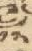༡༢
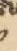༡
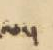ལ་།
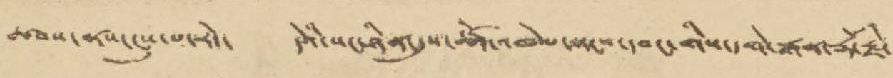ཚབས་ནས་ངུས་པ་རེད་ དེའི་སང་ཉིན་དུས་ཚོད་འཁེལ་སྟངས་དབང་གིས་དགེ་རྒན་རྡོ་རྗེ་
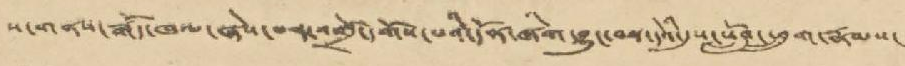ས་གནས་རྒོད་ཁལ་ཞེས་པར་འགྲོ་དགོས་པའི་དོན་ཞིག་བྱུང་བས་དེའི་དུས་སློབ་ཕྲུག་རྣམས་
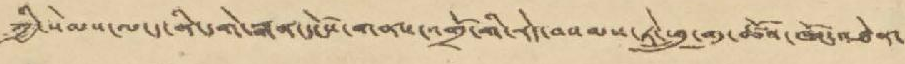ཀྱི་སེམས་ལ་ད་ནི་དགེ་རྒན་དངོས་གནས་འགྲོ་གི་རེད་བསམས་ཏེ་ཕྲུ་གུ་ཚོས་ཁོང་འཐེན་
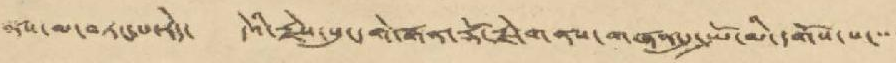ནས་མ་བཏང་པ་རེད་ དེའི་རྗེས་སུ་དགེ་རྒན་རྡོ་རྗེ་གནས་གཞན་དུ་སྤོ་མི་དགོས་པ་་་་
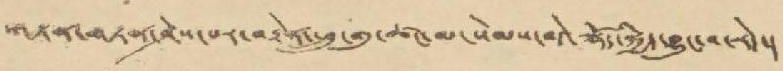གཏན་གཏན་ཤེས་པར་བརྟེན་ཕྲུ་གུ་ཚང་མ་སེམས་བདེ་ལྷོད་སྐྱིད་བྱུང་བ་རེད་།
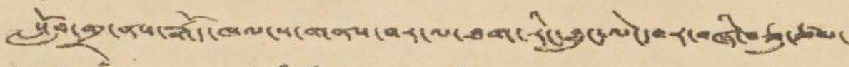སློབ་གྲྭ་ནས་རྒོད་ཁལ་ས་གནས་བར་ལ་ཐག་རིང་ཐུང་ལེ་དབར་བཞི་བཅུ་ཙམ་
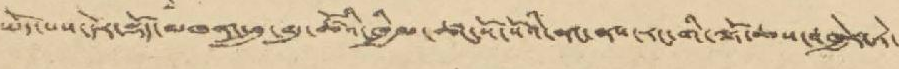ཡོད་པས་དེར་སྡོད་མཁན་ཕྲུ་གུ་ཚོའི་ཁྱིམ་ཚང་སོ་སོའི་ནང་ནས་རང་གི་ལྟོ་ཆས་འཁྱེར་ཏེ་
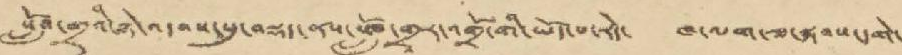སློབ་གྲྭའི་ཉེ་འདབས་ནས་སློབ་གྲྭར་འགྲོ་གི་ཡོད་པ་རེད་ ཁ་ལག་ཟ་སྐབས་དགེ་
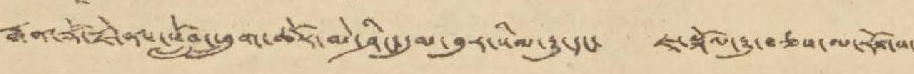རྒན་རྡོ་རྗེ་ནས་སློབ་ཕྲུག་ཚོར་མེ་ཤིང་དུམ་བུར་སིལ་རྒྱུ་དང་ ཇ་སྐོལ་རྒྱུ་བཅས་ལ་རོགས་
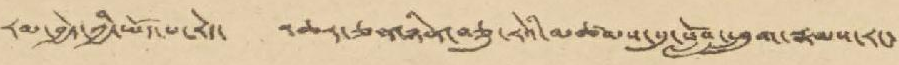རམ་བྱེད་ཀྱི་ཡོད་པ་རེད་ འཆར་ཅན་ཉིན་བཅུ་རེའི་མཚམས་སུ་སློབ་ཕྲུག་རྣམས་རང་
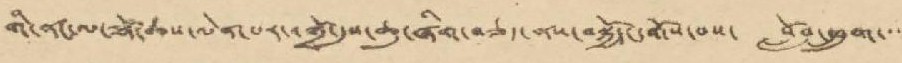གི་ནང་ལ་ལྟོ་ཆས་ལེན་པར་འགྲོ་དུས་ཆུ་ཞིག་བཅད་ནས་བསྐྱོད་དགོས་པས་ སློབ་ཕྲུག་་་་
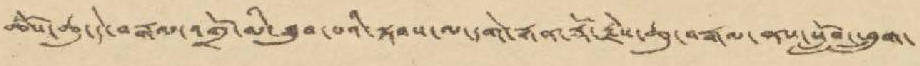ཚོས་ཆུ་དེ་བརྒལ་འགྲོ་མི་ཐུབ་པའི་སྐབས་ལ་དགེ་རྒན་རྡོ་རྗེས་ཆུ་བརྒལ་ནས་སློབ་ཕྲུག་
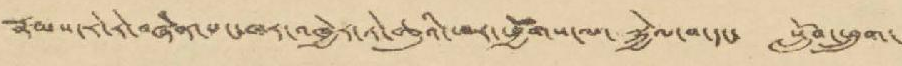རྣམས་རེ་རེ་བཞིན་པང་ཁར་འཁྱེར་ཏེ་ཆུའི་ཕར་ཕྱོགས་ལ་སྐྱེལ་བ་དང་ སློབ་ཕྲུག་
